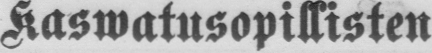Kaswatusopillisten
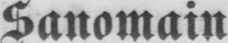Sanomain
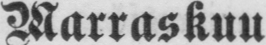Marraskuu
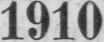1910
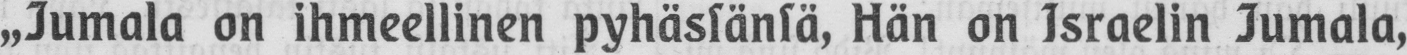„Jumala on ihmeellinen pyhässänsä, Hän on Israelin Jumala,
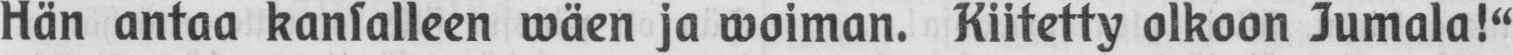Hän antaa kansalleen wäen ja woiman. Kiitetty olkoon Jumala!"
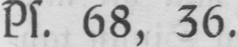ps. 68, 36.
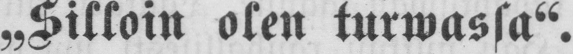„Silloin olen turwassa".
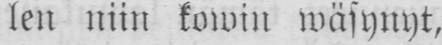len niin kowin wäsynyt,
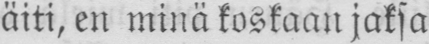äiti, en minä koskaan jaksa
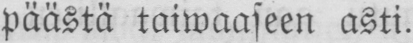päästä taiwaaseen asti.
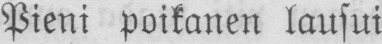Pieni poikanen lausui
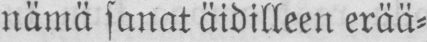nämä sanat äidilleen erää-
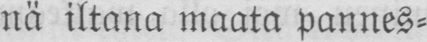nä iltana maata pannes-
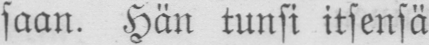saan. Hän tunsi itsensä
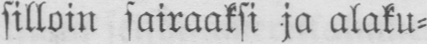silloin sairaaksi ja alaku-
